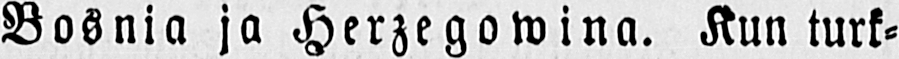Bosnia ja Herzegowina. Kun turk-
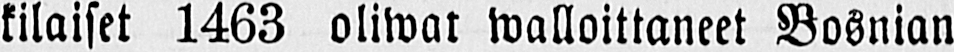kilaiset 1463 oliwat walloittaneet Bosnian
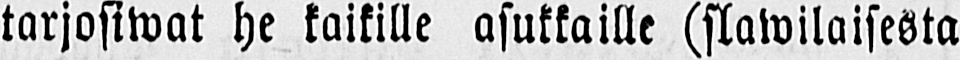tarjosiwat he kaikille asukkaille (slawilaisesta
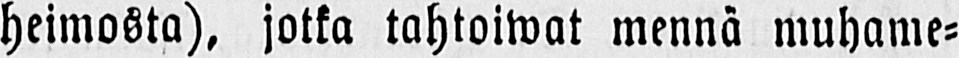heimosta), jotka tahtoiwat mennä muhame-
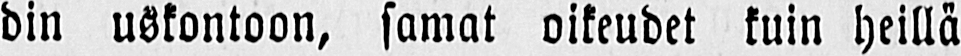din uskontoon, samat oikeudet kuin heillä
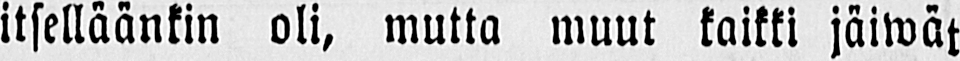itselläänkin oli, mutta muut kaikki jäiwät
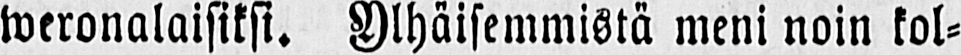weronalaisiksi. Ylhäisemmistä meni noin kol-
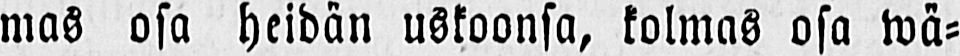mas osa heidän uskoonsa, kolmas osa wä-
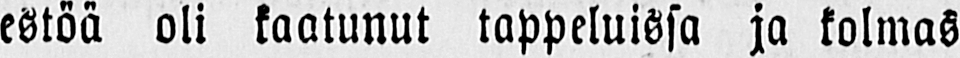estöä oli kaatunut tappeluissa ja kolmas
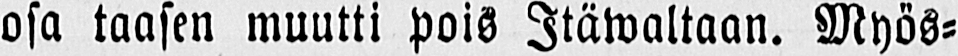osa taasen muutti pois Itäwaltaan. Myös-
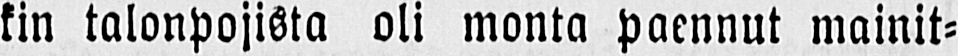kin talonpojista oli monta paennut mainit-
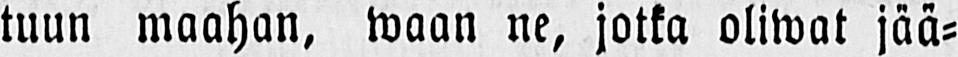tuun maahan, waan ne, jotka oliwat jää-
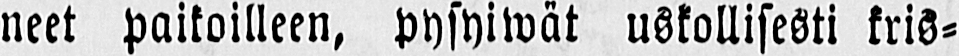neet paikoilleen, pysyiwät uskollisesti kris-
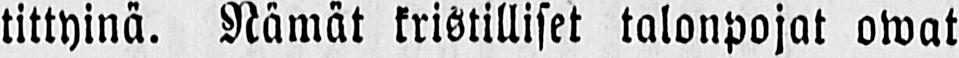tittyinä. Nämät kristilliset talonpojat owat
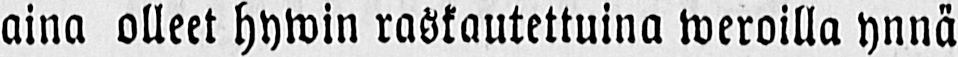aina olleet hywin raskautettuina weroilla ynnä
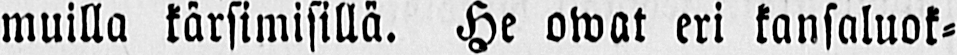muilla kärsimisillä. He owat eri kansaluok-
